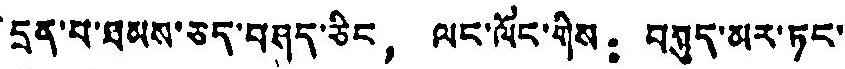དྲན་པ་ཐམས་ཅད་བཤད་ཅིང， ལང་ལོང་གིས： བསུད་མར་ཏང་
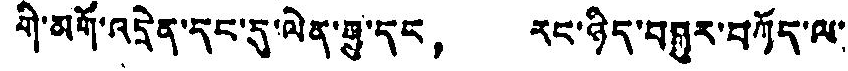གི་མགོ་འདྲེན་དང་དུ་ལེན་རྒྱུ་དང， རང་ཉིད་བསྐྱུར་བཀོད་ལ་
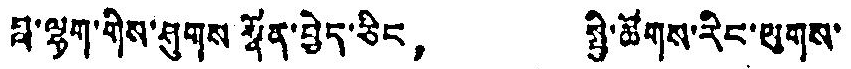ཐ་ལྷག་གིས་ཤུགས སྣོན་བྱེད་ཅིང， སྤྱི་ཚོགས་རིང་ལུགས་
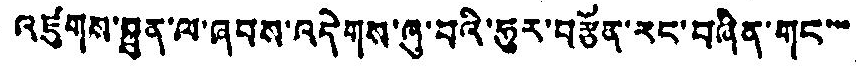འཛུགས་ཐུན་ལ་ཞབས་འདེགས་ཞུ་བའི་ཧུར་བརྩོན་རང་བཞིན་གང་་་་
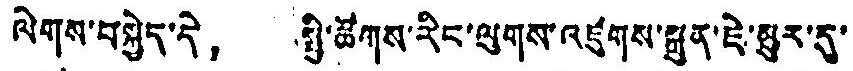ལེགས་བསྐྱེད་དེ， སྤྱི་ཚོགས་རིང་ལུགས་འཛུགས་སྐྲུན་ཇེ་མུར་དུ་
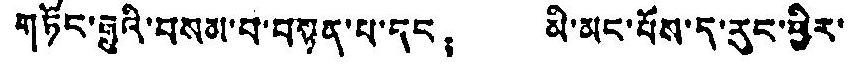གཏོང་རྒྱུའི་བསམ་པ་བསྟན་པ་དང， མི་མང་པོས་ད་རུང་ཕྱིར་
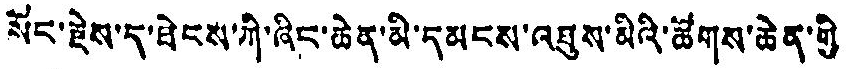སོང་རྗེས་ད་ཐེངས་ཀྱི་ཞིང་ཆེན་མི་དམངས་འཐུས་མིའི་ཚོགས་ཆེན་གྱི
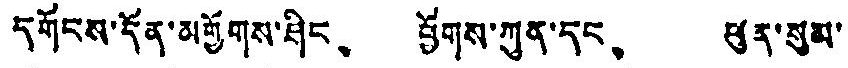དགོངས་དོན་མགྱོགས་ཤིང、 ཕྱོགས་ཀུན་དང、 ཡུན་སུམ་
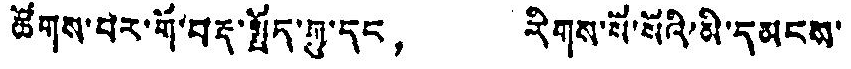ཚོགས་པར་གོ་བརྡ་སྤྱོད་ཀྱུ་དང， རིགས་སོ་སོའི་མི་དམངས་
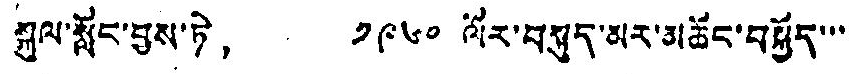སྐུལ་སློང་བྱས་ཏེ， ༡༩༦༠ ལོར་བསུད་མར་མཆོང་བསྐྱོད་་་
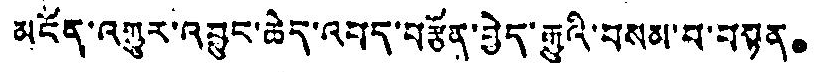མངོན་འགྱུར་འབྱུང་ཆེད་འབད་བརྩོན་བྱེད་རྒྱུའི་བསམ་པ་བསྟན。
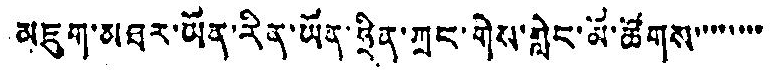མཇུག་མཐར་ཡོན་རིན་ཡོན་ཧྲིན་ཀྲང་གིས་གླེང་མོ་ཚོགས་་་་་་་་
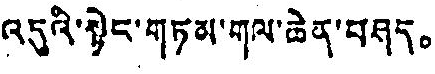འདུའི་སྟེང་གཏམ་གལ་ཆེན་བཤད。
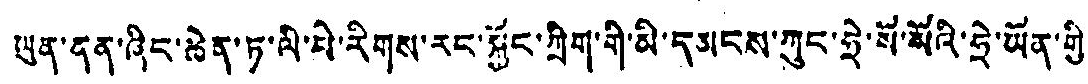ཡུན་ནན་ཞིང་ཆེན་ཏ་ལི་པི་རིགས་རང་སྐྱོང་ཀྲིག་གི་མི་དམངས་ཀུང་ཧྲེ་སོ་སོའི་ཧྲེ་ཡོན་གྱི
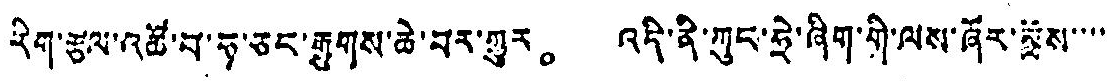རིག་རྩལ་འཚོ་བ་ཧ་ཅང་རྒྱུགས་ཆེ་བར་གྱུར。 འདི་ནི་ཀུང་ཧྲེ་ཞིག་གི་ལས་ཞོར་ཟློས་་་་
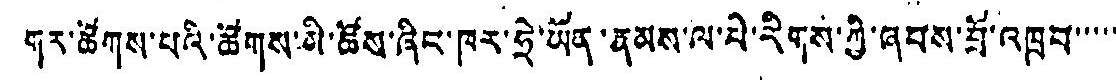གར་ཚོགས་པའི་ཚོགས་མི་ཚོས་ཞིང་ཁུར་ཧྲེ་ཡོན་རྣམས་ལ་པེ་རིགས་ཀྱི་ཞབས་བྲོ་འཁྲབ་་་་་་
